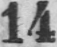14
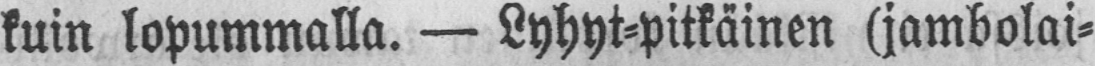kuin lopummalla. — Lyhyt-pitkäinen (jambolai-
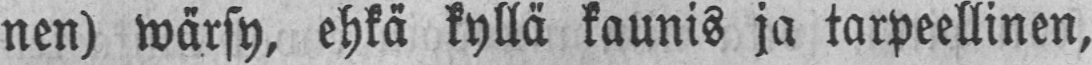nen) wärsy, ehkä kyllä kaunis ja tarpeellinen,
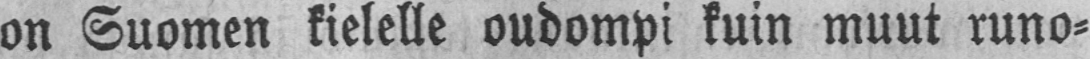on Suomen kielelle oudompi kuin muut runo-
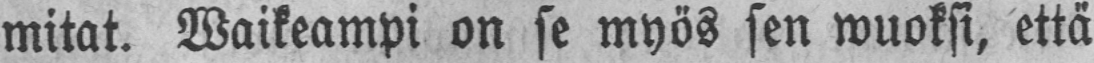mitat. Waikeampi on se myös sen wuoksi, että
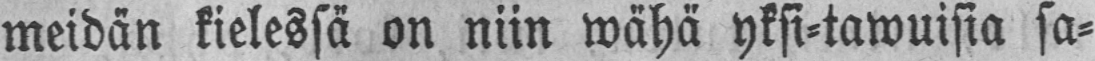meidän kielessä on niin wähä yksi-tawuisia sa-
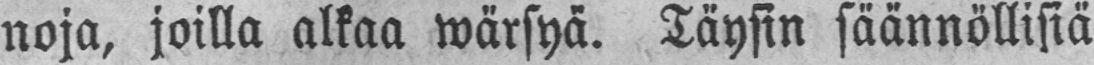noja, joilla alkaa wärsyä. Täysin säännöllisiä
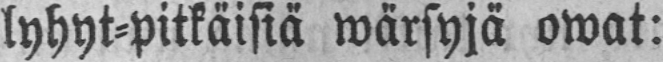lyhyt-pitkäisiä wärsyjä owat:
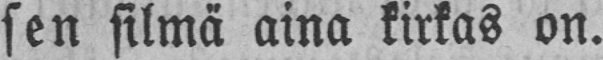sen silmä aina kirkas on.
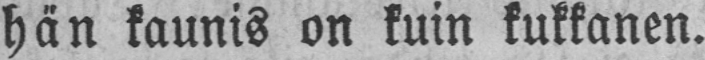hän kaunis on kuin kukkanen,
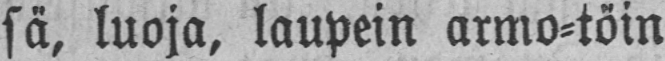sä, luoja, laupein armo-töin
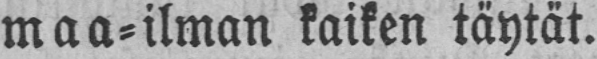maa-ilman kaiken täytät.
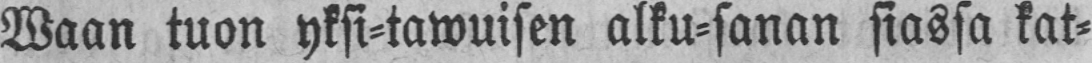Waan tuon yksi-tawuisen alku-sanan siassa kat-
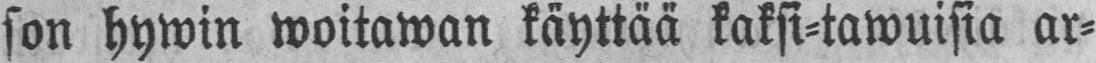son hywin woitawan käyttää kaksi-tawuisia ar-
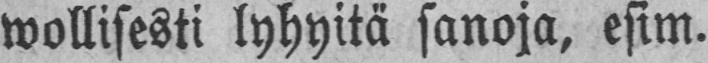wollisesti lyhyitä sanoja, esim.
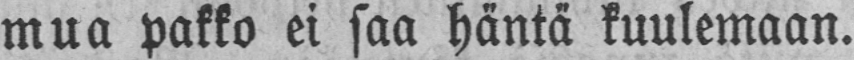mua pakko ei saa häntä kuulemaan,
